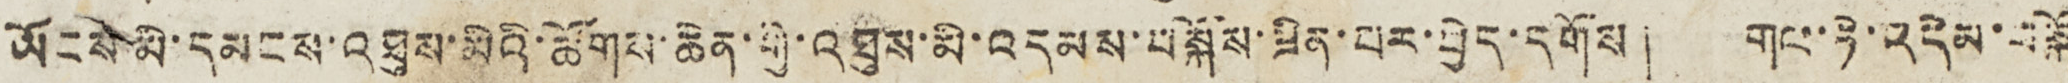ཡོངས་མི་དམངས་འཐུས་མིའི་ཚོགས་ཆེན་གྱི་འཐུས་མི་འདམས་བསྐོས་ཟིན་པར་བྱེད་དགོས། གང་ཏེ་འདེམ་བསྐོ
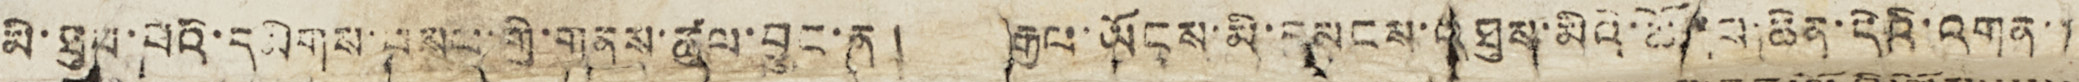མི་ཐུབ་པའི་དམིགས་བསལ་གྱི་གནས་ཚུལ་བྱུང་ན། རྒྱལ་ཡོངས་མི་དམངས་འཐུས་མིའི་ཚོགས་ཆེན་དེའི་འགན་
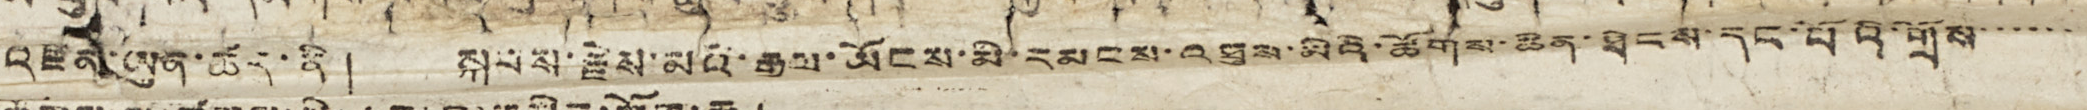འཛིན་ཡུན་ཚར་ནི། སྐབས་རྗེས་མའི་རྒྱལ་ཡོངས་མི་དམངས་འཐུས་མིའི་ཚོགས་ཆེན་ཐེངྶ་དང་པོའི་གྲོས་་་་་་
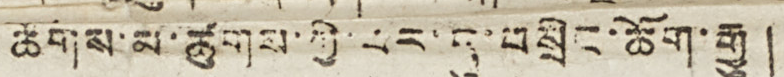ཚོགས་མ་ཚུགས་ཀྱི་བར་དུ་བསྲིང་ཆོག་རྒྱུ།
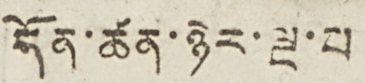དོན་ཚན་ཉེར་ལྔ་པ།
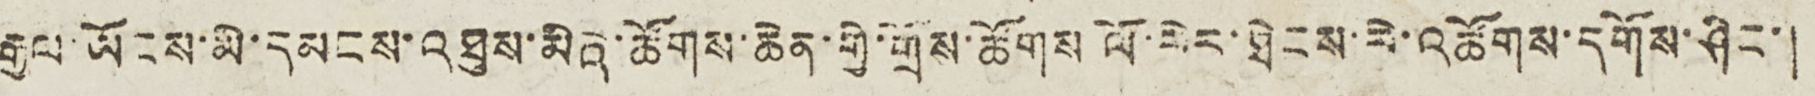རྒྱལ་ཡོངས་མི་དམངས་འཐུས་མིའི་ཚོགས་ཆེན་གྱི་གྲོས་ཚོགས ལོ་ལེར་ཐེངས་རེ་འཚོགས་དགོས་ཤིང་།
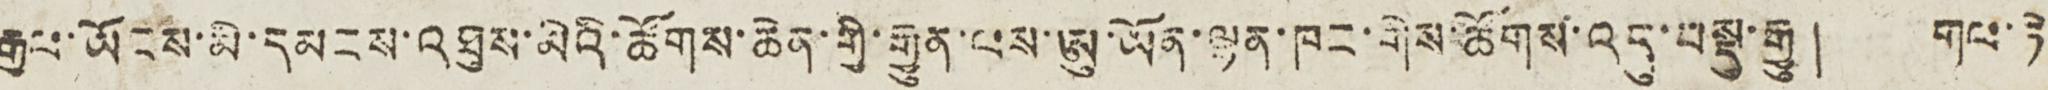རྒྱལ་ཡོངས་མི་དམངས་འཐུས་མིའི་ཚོགས་ཆེན་གྱི་རྒྱུན་ལས་ཨུ་ཡོན་ལྷན་ཁང་གིས་ཚོགས་འདུ་བསྡུ་རྒྱུ། གལ་ཏེ་
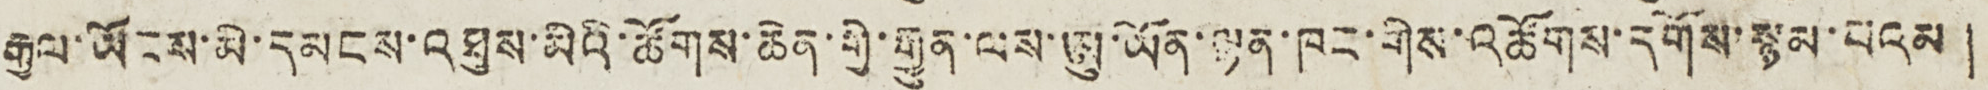རྒྱལ་ཡོངས་མི་དམངས་འཐུས་མིའི་ཚོགས་ཆེན་གྱི་རྒྱུན་ལས་ཨུ་ཡོན་ལྷན་ཁང་གིས་འཚོགས་དགོས་སྙམ་པའམ།
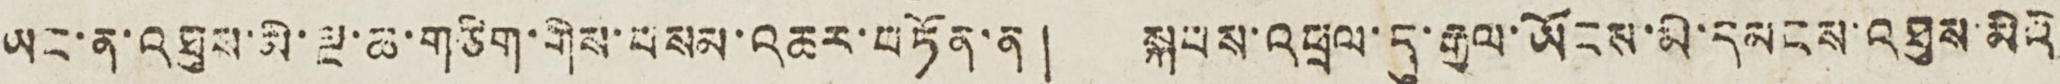ཡང་ན་འཏུས་མི་ལྔ་ཆ་གཅིག་གིས་བསམ་འཆར་བཏོན་ན། སྐབས་འཕྲལ་དུ་རྒྱལ་ཡོངས་མི་དམངས་འཐུས་མིའི་
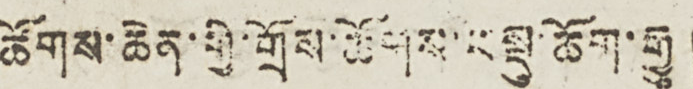ཚོགས་ཆེན་གྱི་གྲོས་ཚོགས་བསྡུ་ཆོག་རྒྱུ།
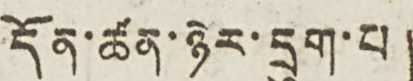དོན་ཚན་ཉེར་དྲུག་པ།
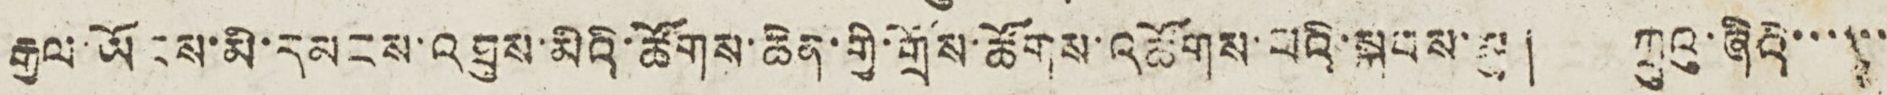རྒྱལ་ཡོངས་མི་དམངས་འཐུས་མིའི་ཚོགས་ཆེན་གྱི་གྲོས་ཚོགས་འཚོགས་པའི་སྐབས་སུ། ཀྲུའུ་ཞིའི་་་་་་་
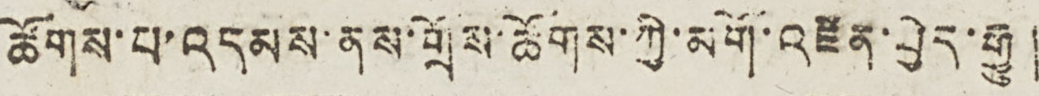ཚོགས་པ་འདམས་ནས་གྲོས་ཚོགས་ཀྱི་མགོ་འཛིན་བྱེད་རྒྱུ།
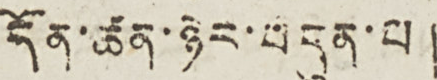དོན་ཚན་ཉེར་བདུན་པ།
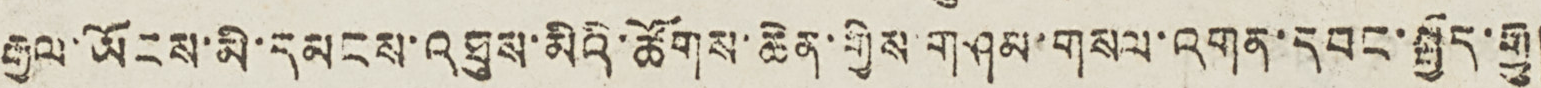རྒྱལ་ཡོངས་མི་དམངས་འཐུས་མིའི་ཚོགས་ཆེན་གྱིས་གཤམ་གསལ་འགན་དབང་སྤྱོད་རྒྱུ།
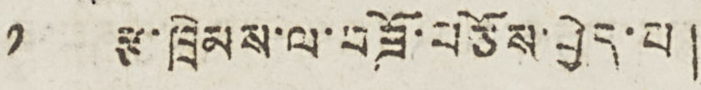༡ རྩ་ཁྲིམས་ལ་བཟོ་བཅོས་བྱེད་པ།
